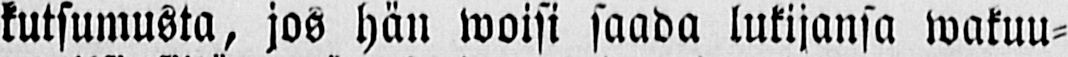kutsumusta, jos hän woisi saada lukijansa wakuu-
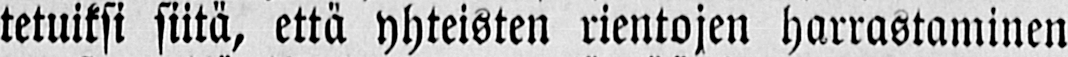tetuiksi siitä, että yhteisten rientojen harrastaminen
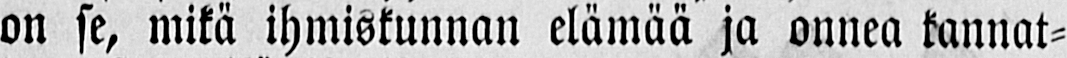on se, mikä ihmiskunnan elämää ja onnea kannat-
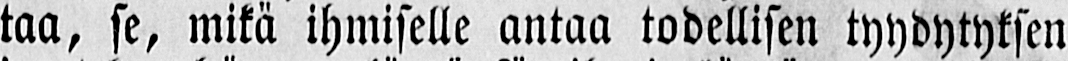taa, se, mikä ihmiselle antaa todellisen tyydytyksen
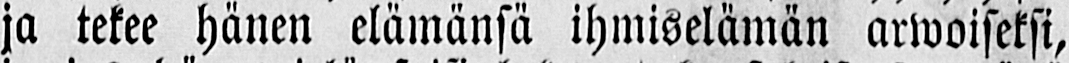ja tekee hänen elämänsä ihmiselämän arwoiseksi,
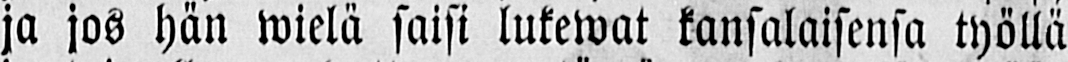ja jos hän wielä saisi lukewat kansalaisensa työllä
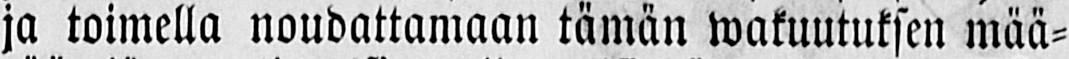ja toimella noudattamaan tämän wakuutuksen mää-
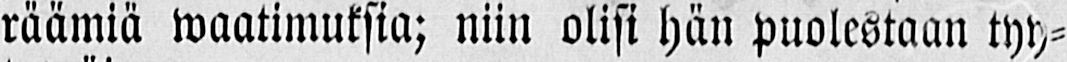räämiä waatimuksia; niin olisi hän puolestaan tyy-
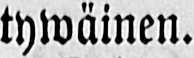tywäinen.
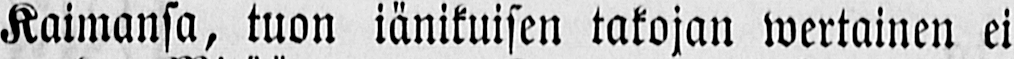Kaimansa, tuon iänikuisen takojan wertainen ei
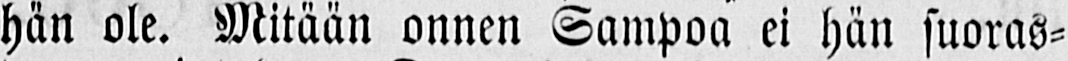hän ole. Mitään onnen Sampoa ei hän suoras-
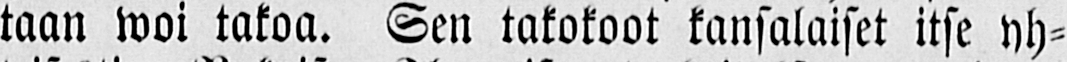taan woi takoa. Sen takokoot kansalaiset itse yh-
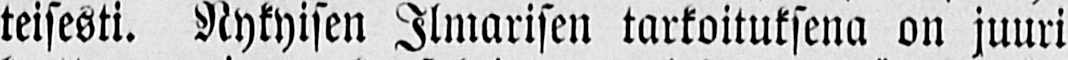teisesti. Nykyisen Ilmarisen tarkoituksena on juuri
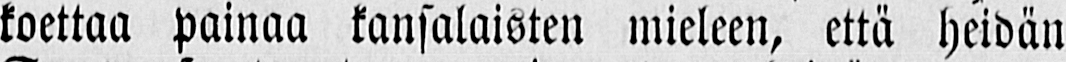koettaa painaa kansalaisten mieleen, että heidän
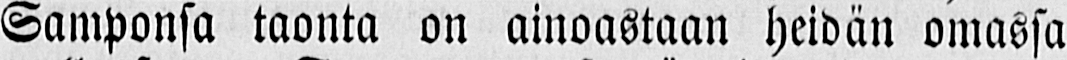Samponsa taonta on ainoastaan heidän omassa
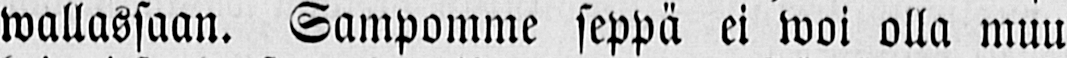wallassaan. Sampomme seppä ei woi olla muu
